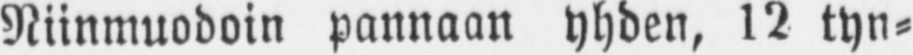Niinmuodoin pannaan yhden, 12 tyn-
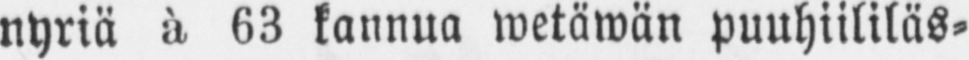nyriä à 63 kannua wetäwän puuhiililäs-
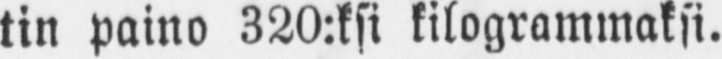tin paino 320:ksi kilogrammaksi.
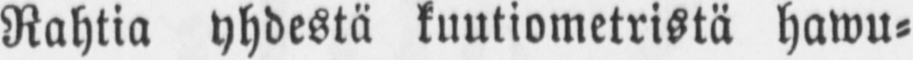Rahtia yhdestä kuutiometristä hawu-
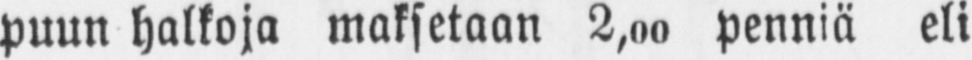puun halkoja maksetaan 2,00 penniä eli
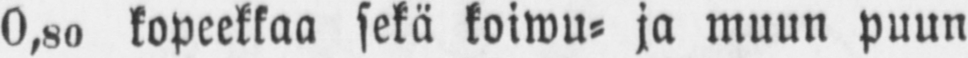0,80 kopeekkaa sekä koiwu- ja muun puun
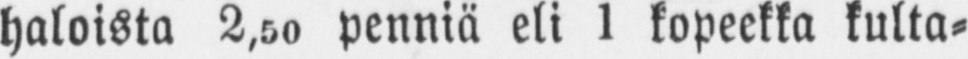haloista 2,50 penniä eli 1 kopeekka kulta-
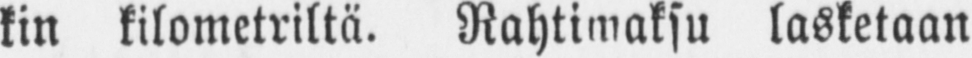kin kilometriltä. Rahtimaksu lasketaan
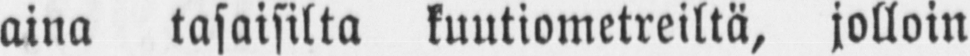aina tasaisilta kuutiometreiltä, jolloin
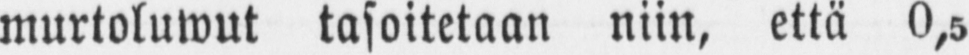murtoluwut tasoitetaan niin, että 0,5
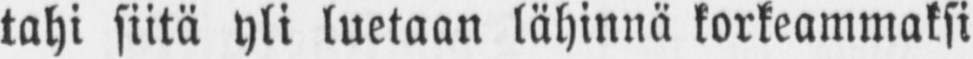tahi siitä yli luetaan lähinnä korkeammaksi
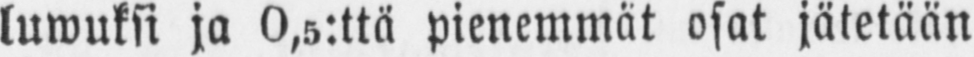kuwuksi ja 0,5:ttä pienemmät osat jätetään
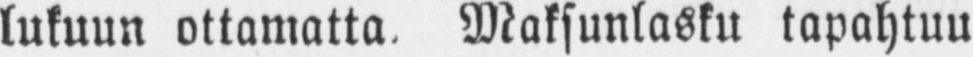lukuun ottamatta, Maksunlasku tapahtuu
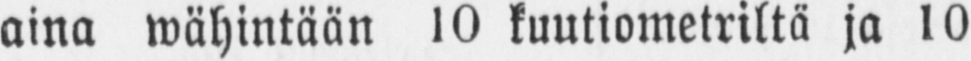aina wähintään 10 kuutiometriltä ja 10
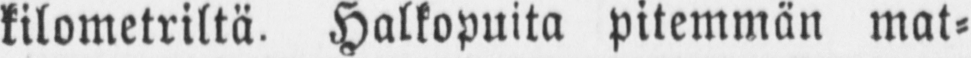kilometriltä. Halkopuita pitemmän mat-
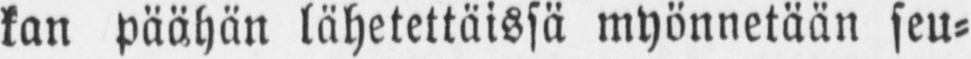kan päähän lähetettäissä myönnetään seu-
